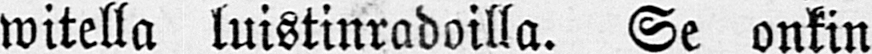witella luistinradoilla. Se onkin
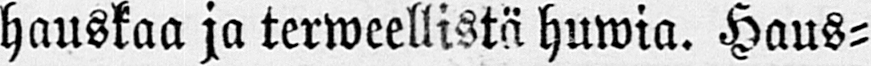hauskaa ja terweellistä huwia. Haus-
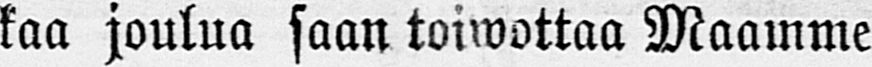kaa joulua saan toiwottaa Maamme
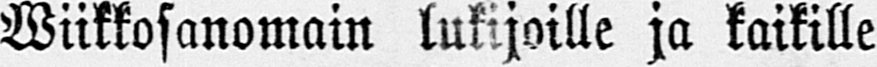Wiikkosanomain lukijoille ja kaikille
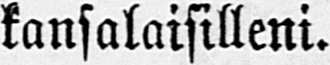kansalaisilleni.
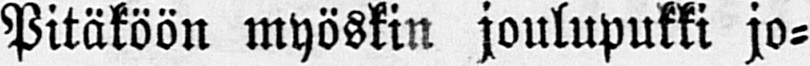Pitäköön myöskin joulupukki jo-
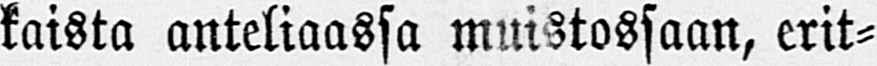kaista anteliaassa muistossaan, erit-
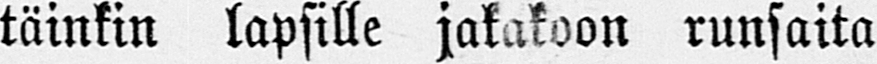täinkin lapsille jakakoon runsaita
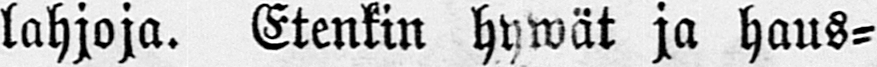lahjoja. Etenkin hywät ja haus-
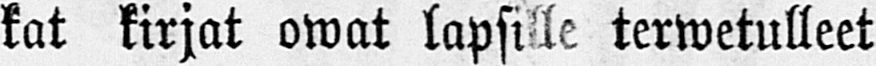kat kirjat owat lapsille terwetulleet
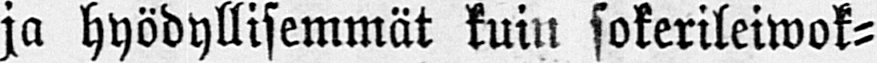ja hyödyllisemmät kuin sokerileiwok-
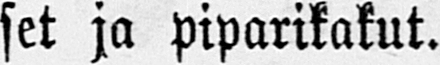set ja piparikakut.
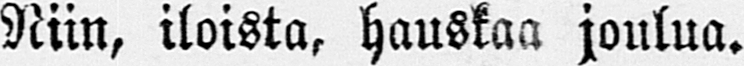Niin, iloista, hauskaa joulua.
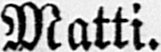Matti.
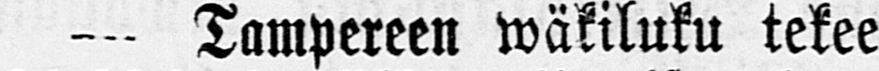— Tampereen wäkiluku tekee
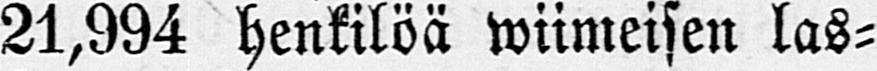21,994 henkilöä wiimeisen las-
